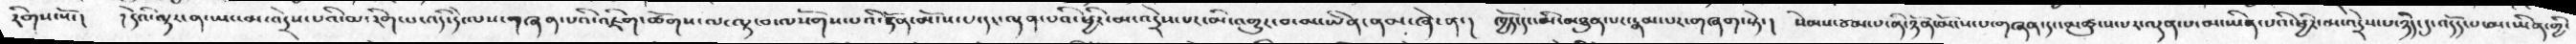རིགས་སོ་།  །དེའི་ལྟར་ན་ཡང་མ་འདྲེས་པའི་མ་རིག་པ་འདི་དེ་ལས་གཞན་པའི་འཇིག་ཚོགས་ལ་ལྟ་བ་ལ་སོགས་པའི་ཉོན་མོངས་པ་དང་ལྡན་པའི་ཕྱིར་མ་འདྲེས་པར་མི་འགྱུར་བ་མ་ཡིན་ནམ་ཞེ་ན་།  ཁྱོད་དང་མི་མཐུན་པར་རྣམ་པར་གཞག་སྟེ་།  སེམས་ཅམ་པ་ནི་ཉོན་མོངས་པ་གཞན་དང་མཚུངས་པར་ལྡན་པ་མ་ཡིན་པའི་ཕྱིར་མ་འདྲེས་པ་ཉིད་དུ་འདོད་པ་མ་ཡིན་གྱི་
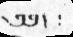༄༅།   ༴
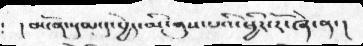། མངོན་སུམ་དུ་བྱེད་མི་ནུས་པའི་ཕྱིར་རོ་ཞེ་ན་།
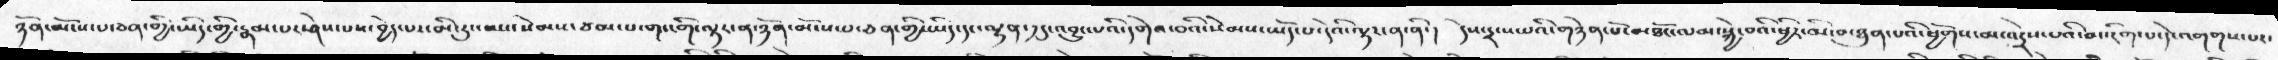ཉོན་མོངས་པ་ཅན་གྱི་ཡིད་གྱི་རྣམ་པར་ཤེས་པས་བྱེད་པར་མི་རུང་བས་སེམས་ཙམ་པ་གང་གི་ལྟར་ན་ཉོན་མོངས་པ་ཅན་གྱི་ཡིད་དང་ལྷན་༡དུ་འབྱུང་པའི་དགེའ་བའི་སེམས་ཡོད་པ་དེའི་ལྟར་ན་ནི་།  དེས་དྲངས་པའི་གཉེན་པོ་མཐོང་ལམ་སྐྱེ་བའི་ཕྱིར་མི་མཐུན་པའི་ཕྱོགས་མ་འདྲེས་པའི་མ་རིག་པ་དེ་འགགས་པར་
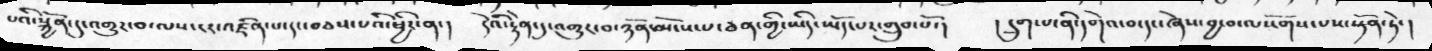པའི་སྐྱོན་དུ་འགྱུར་བ་ལས་ངར་འཛིན་པ་དང་དབཅས་པའི་ཕྱིར་ན་།  དེའི་རྟེན་དུ་འགྱུར་བ་ཉོན་མོངས་པ་ཅན་གྱི་ཡིད་ཡོད་པར་གྲུབ་པོ་།  །དྲུག་པ་ནི་དགེའ་བ་དང་ཞེས་བྱ་བ་ལསོགས་པས་སྟོན་ཏེ་།
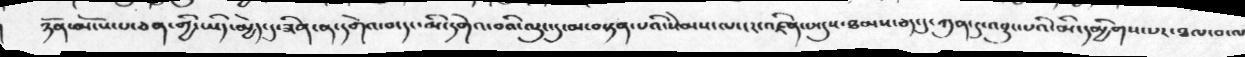ཉོན་མོངས་པ་ཅན་གྱི་ཡིད་མྱེད་དུ་ཟིན་ན་དགེའ་བ་དང་མི་དགེའ་བའི་ལུང་དུ་མ་བསྟན་པའི་སེམས་ལ་ངར་འཛིན་པ་དུས་ཐམས་ཅད་དུ་ཀུན་དུ་འབྱུང་པའི་མི་དམྱིགས་པར་ཐལ་བ་ལ
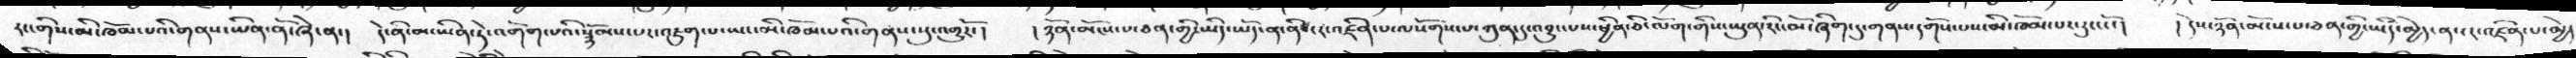རང་གིས་མི་ཁོམ་པའི་གནས་ཡིན་ནོ་ཞེ་ན་།  དེ་ནི་མ་ཡིན་ཏེ་འགོག་པའི་སྙོམས་པར་འཇུག་པ་ཡང་མི་ཁོམ་པའི་གནས་སུ་འགྱུརོ་།  །ཉོན་མོངས་པ་ཅན་གྱི་ཡིད་ཡོད་ན་ནི་ངར་འཛིན་པ་ལསོགས་པ་ཀུན་དུ་འབྱུང་པས་ཕྱིན་ཅི་ལོག་གིས་ཡུན་རིང་མོ་ཞིག་དུ་གནས་དགོས་པས་མི་ཁོམ་པར་རུང་ངོ་།   །དེས་ཉོན་མོངས་པ་ཅན་གྱི་ཡིད་མྱེད་ན་ངར་འཛིན་པ་མྱེད
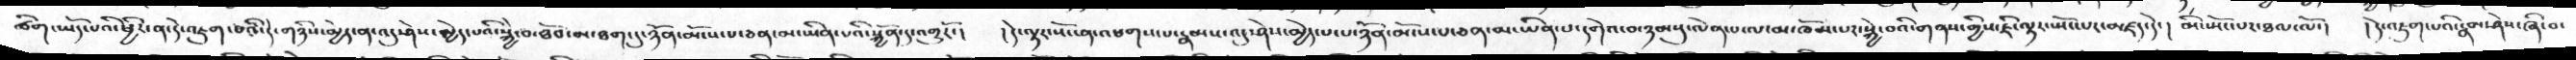ཚིག་ཡོད་པའི་ཕྱིར་ན་དེ་འཇུག་པའི་དེ་གཉིས་མྱེད་ན་འདུ་ཤེས་མྱེད་པའི་སྐྱེ་བ་ཐོབ་མ་ཐག་དུ་ཉོན་མོངས་པ་ཅན་མ་ཡིན་པའི་སྐྱོན་དུ་འགྱུརོ་།  །དེ་ལྟར་སོང་ན་འཕགས་པ་རྣམས་འདུ་ཤེས་མྱེད་པ་པ་ཉོན་མོངས་པ་ཅན་མ་ཡིན་པ་དགེའ་བ་ཉམསུ་ལེན་པ་ལ་མ་ཁོམ་པར་སྐྱེ་བའི་གནས་གྱིས་ཇི་ལྟར་སྤོང་པར་མཛད་དེ་།   །མི་ཡོང་པར་ཐལ་ལོ་།  །དེ་འཇུག་པའི་རྣམ་ཤེས་ཞི་བ་
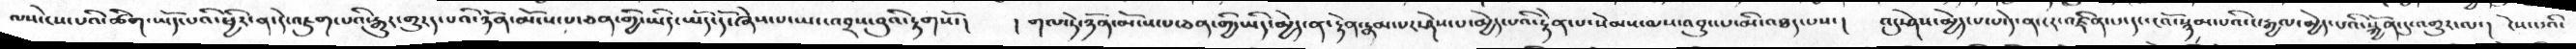ལས་ངེས་པའི་ཚིག་ཡོད་པའི་ཕྱིར་ན་དེ་འཇུག་པའི་རྒྱུར་གྱུརད་པའི་ཉོན་མོངས་པ་ཅན་གྱི་ཡིད་ཡོད་དོ་ཞེས་པ་ཡང་འབྲས་བུའི་རྟགསོ་།  ། གལ་ཏེ་ཉོན་མོངས་པ་ཅན་གྱི་ཡིད་མྱེད་ན་རྟེན་རྣམ་པར་ཤེས་པ་མྱེད་པའི་རྟེན་པ་སེམས་ལས་འབྱུང་པ་མི་འཐད་པས་།  འདུ་ཤེས་མྱེད་པ་འདོད་ན་ངར་འཛིན་པ་དང་ངའོ་སྙམ་པའི་ང་རྒྱལ་མྱེད་པའི་སྐྱོན་དུ་འགྱུར་ལ་།  ངེས་པའི་
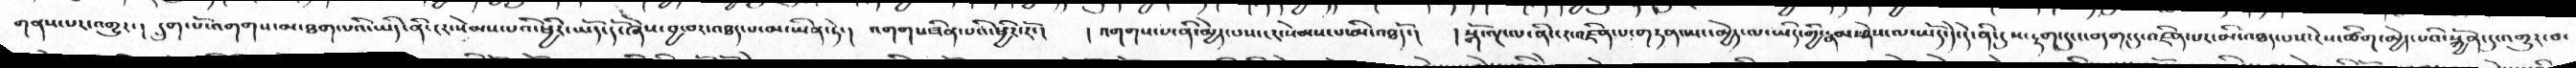གནས་པར་འགྱུར་།  དྲུག་པོ་འགགས་མ་ཐག་པའི་ཡིད་ནི་ངར་སེམས་པའི་ཕྱིར་ཡོད་དོ་ཞེས་བྱ་བར་འཐད་པ་མ་ཡིན་ཏེ་།  འགགས་ཟིན་པའི་ཕྱིར་རོ་།  །འགགས་པ་ནི་མྱེད་པས་ངང་སེམས་པ་མི་འཐདོ་།  །སྒོ་ལྔ་ལ་ནི་ངར་འཛིན་པ་གཏན་ཡང་མྱེད་ལ་ཡིད་གྱི་རྣམ་ཤེས་ལ་ཡོད་དེ་དེ་ནི་དུས་རྟག་དུ་ང་བདག་དུ་འཛིན་པར་མི་འཐད་པས་ངེས་ཚིག་མྱེད་པའི་སྐྱོན་དུ་འགྱུར་་བ་
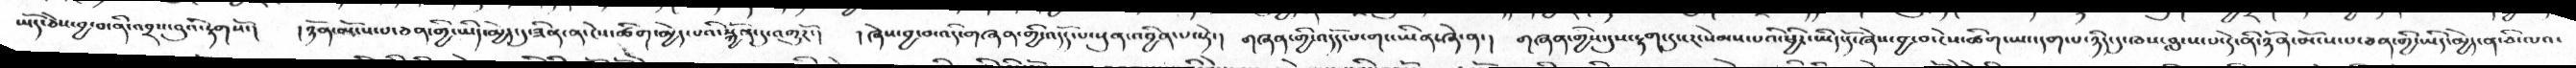ཡོད་ཅེས་བྱ་བ་ནི་འབྲས་བུའི་རྟགསོ་།  །ཉོན་མོངས་པ་ཅན་གྱི་ཡིད་མྱེད་དུ་ཟིན་ན་ངེས་ཚིག་མྱེད་པའི་སྐྱོན་དུ་འགྱུརོ་།  །ཞེས་བྱ་བ་འདི་གཞན་གྱི་འདོད་པ་སུན་འབྱིན་པ་སྟེ་།  གཞན་གྱིས་དུས་རྟག་དུ་ངར་སེམས་པའི་ཕྱིར་ཡིད་དོ་ཞེས་བྱ་བ་ངེས་ཚིག་ཡང་དག་པ་ཉིད་དུ་ཁས་བླངས་པ་དེ་ནི་ཉོན་མོངས་པ་ཅན་གྱི་ཡིད་མྱེད་ན་ཅི་ལའ་
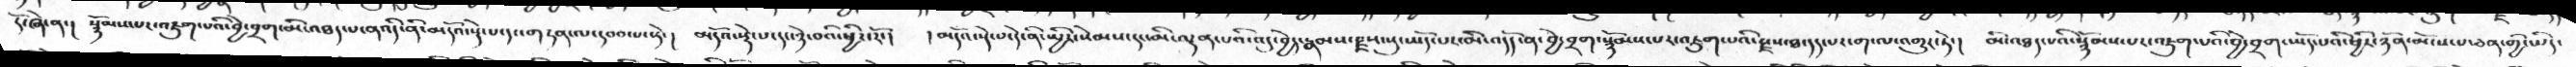རོ་ཞེ་ན་།   སྙོམས་པར་འཇུག་པའི་བྱེ་བྲག་མི་འཐད་པ་ནའདི་ནི་མདོའ་སྡེ་པ་དང་གཏན་ལ་དབབ་པ་སྟེ་།   མདོའ་སྡེ་པ་དང་ཉེ་བའི་ཕྱིར་རོ་།  །མདོའ་སྡེ་བ་དེ་ནི་སྤྱིར་སེམས་དང་མི་ལྡན་པའི་འདུ་བྱེད་རྣམས་རྫས་སུ་ཡོད་པར་མི་འདོད་ན་བྱེ་བྲག་སྙོམས་པར་འཇུག་པའི་རྫས་ཐ་དད་པར་ག་ལ་འགྱུར་ཏེ་།  མི་འཐད་པའི་སྙོམས་པར་འཇུག་པའི་བྱེ་བྲག་ཡོད་པའི་ཕྱིར་ཉོན་མོངས་པ་ཅན་གྱི་ཡིད་
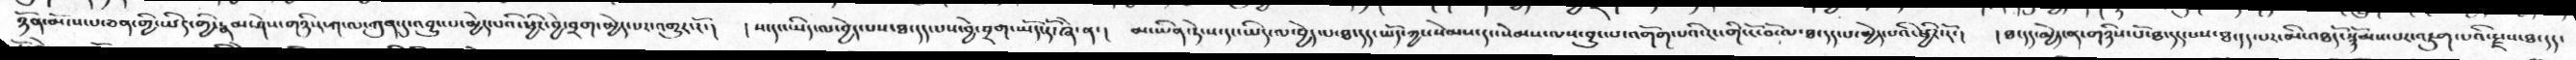ཉོན་མོངས་པ་ཅན་གྱི་ཡིད་གྱི་རྣམ་ཤེས་གཉིས་ག་ལ་ཀུན་དུ་འབྱུང་པ་མྱེད་པའི་ཕྱིར་བྱེ་བྲག་མྱེད་པར་འགྱུར་རོ་།  །ས་དང་ཡིད་ལ་བྱེད་པས་ཐ་དད་པས་བྱེ་བྲག་ཡོད་དོ་ཞེ་ན་།  མ་ཡིན་ཏེ་ས་དང་ཡིད་ལ་བྱེད་པ་ཐ་དད་ཡོད་ཀྱང་སེམས་དང་སེམས་ལས་བྱུང་པ་འགོག་པའི་རང་གི་ངོ་བོ་ལ་ཐ་དད་པ་མྱེད་པའི་ཕྱིར་རོ་།  །ཐ་དད་མྱེད་ན་གཉིས་པོ་ཐ་དད་པས་ཐ་དད་པར་མི་འཐདོ་སྙོམས་པར་འཇུག་པའི་རྫས་ཐ་དད་
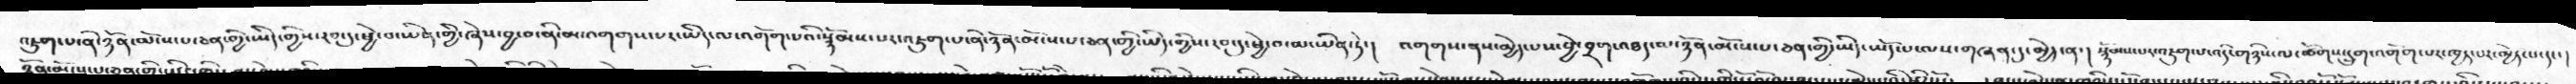འཇུག་པ་ནི་ཉོན་མོངས་པ་ཅན་གྱི་ཡིད་གྱིས་རབ་དུ་ཕྱེ་བ་ཡིན་གྱི་ཞེས་བྱ་བ་ནི་མ་འགགས་པར་ཡིད་ལ་འགོག་པའི་སྙོམས་པར་འཇུག་པ་ནི་ཉོན་མོངས་པ་ཅན་གྱི་ཡིད་གྱིས་རབ་དུ་ཕྱེ་བ་མ་ཡིན་ཏེ་།  འགགས་ནས་མྱེད་པས་བྱེ་བྲག་འཐད་ལ་ཉོན་མོངས་པ་ཅན་གྱི་ཡིད་ཡོད་པ་ལས་གཞན་དུ་མྱེད་ན་། སྙོམས་པར་འཇུག་པ་འདི་གཉིས་ལ་ཚོགས་དྲུག་འགོག་པར་ཁྱད་པར་མྱེད་པ་དང་།
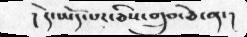།  དེ་ཡོད་པར་ཅིས་གྲུབ་ཅེ་ན་།
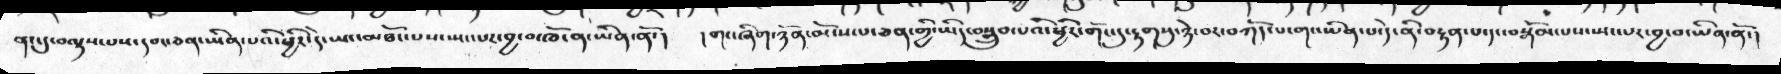ནང་དུ་བལྟས་པས་དབང་ཅན་ཡིན་པའི་ཕྱིར་དེ་ཡང་མཐོང་པས་སྤང་པར་བྱ་བ་ཁོ་ན་ཡིན་ནོ་།  །གང་ཞིག་ཉོན་མོངས་པ་ཅན་གྱི་ཡིད་བསྒྲུབ་པའི་ཕྱིར་གོང་དུ་རྟགསུ་ཉེ་བར་བཀོད་པ་གང་ཡིན་དེ་ནི་བརྟན་པ་དང་བསྒོམ་པས་སྤང་པར་བྱ་བ་ཡིན་ནོ་།
